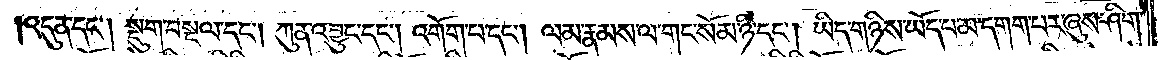འདུན་དང༌། སྡུག་བསྔལ་དང༌། ཀུན་འབྱུང་དང༌། འགོག་པ་དང༌། ལམ་རྣམས་ལ་གང་སོམ་ཉི་དང༌། ཡིད་གཉིས་ཡོད་པ་མ་དགག་པར་ཞུས་ཤིག་
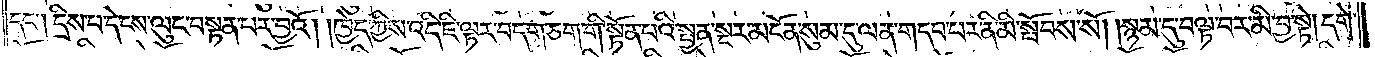དང༌། དྲིས་པ་དེ་ངས་ལུང་བསྟན་པར་བྱའོ། །ཁྱེད་ཀྱིས་འདི་ཇི་ལྟར་བདག་ཅག་གི་སྟོན་པའི་སྤྱན་སྔར་མངོན་སུམ་དུ་ལན་གདབ་པར་ནི་མི་སྤོབས་སོ། །སྙམ་དུ་བལྟ་བར་མི་བྱ་སྟེ། དགེ་
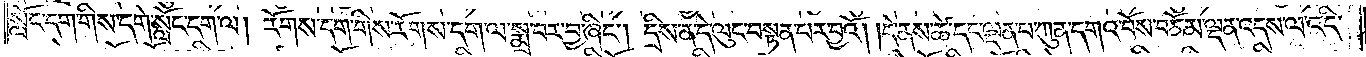སློང་དག་གིས་དགེ་སློང་དག་ལ། རོགས་དག་གིས་རོགས་དག་ལ་སྨྲ་བར་བྱ་ཞིང༌། དྲིས་ན་དེ་ལུང་བསྟན་པར་བྱའོ། །དེ་ནས་ཚེ་དང་ལྡན་པ་ཀུན་དགའ་བོས་བཅོམ་ལྡན་འདས་ལ་འདི་
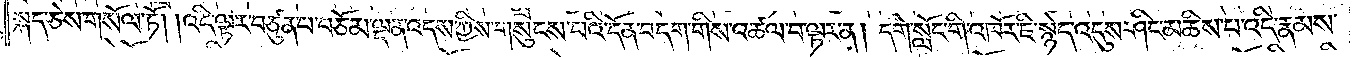སྐད་ཅེས་གསོལ་ཏོ། །འདི་ལྟར་བཙུན་པ་བཅོམ་ལྡན་འདས་ཀྱིས་གསུངས་པའི་དོན་བདག་གིས་འཚལ་བ་ལྟར་ན། དགེ་སློང་གི་འཁོར་ཇི་སྙེད་འདུས་ཤིང་མཆིས་པ་འདི་རྣམས་
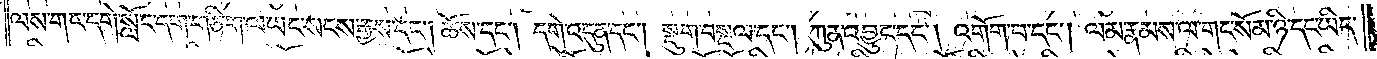ལས་གང་དགེ་སློང་དག་གཅིག་ལ་ཡང་སངས་རྒྱས་དང༌། ཆོས་དང༌། དགེ་འདུན་དང༌། སྡུག་བསྔལ་དང༌། ཀུན་འབྱུང་དང༌། འགོག་པ་དང༌། ལམ་རྣམས་ལ་གང་སོམ་ཉི་དང་ཡིད་
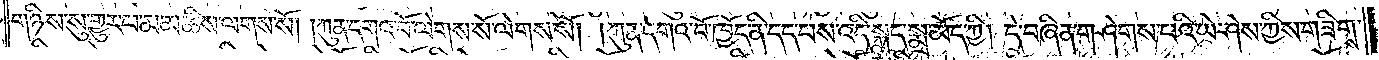གཉིས་སུ་གྱུར་པ་མ་མཆིས་ལགས་སོ། །ཀུན་དགའ་བོ་ལེགས་སོ་ལེགས་སོ། །ཀུན་དགའ་བོ་ཁྱོད་ནི་དད་པས་འདི་སྐད་སྨྲ་མོད་ཀྱི། དེ་བཞིན་གཤེགས་པའི་ཡེ་ཤེས་ཀྱིས་གཟིགས་
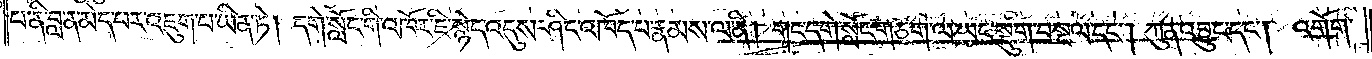པ་ནི་བླ་ན་མེད་པར་འཇུག་པ་ཡིན་ཏེ། དགེ་སློང་གི་འཁོར་ཇི་སྙེད་འདུས་ཤིང་འཁོད་པ་རྣམས་ལ་ནི། གང་དགེ་སློང་གཅིག་ལ་ཡང་སྡུག་བསྔལ་དང༌། ཀུན་འབྱུང་དང༌། འགོག་
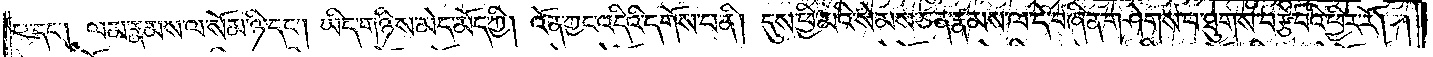པ་དང༌། ལམ་རྣམས་ལ་སོམ་ཉི་དང༌། ཡིད་གཉིས་མེད་མོད་ཀྱི། འོན་ཀྱང་འདིའི་དགོས་པ་ནི། དུས་ཕྱི་མའི་སེམས་ཅན་རྣམས་ལ་དེ་བཞིན་གཤེགས་པ་ཐུགས་བརྩེ་བའི་ཕྱིར་རོ། །
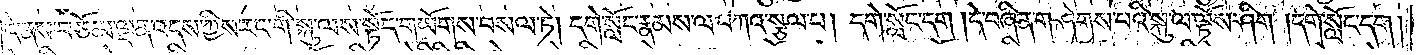དེ་ནས་བཅོམ་ལྡན་འདས་ཀྱིས་རང་གི་སྐུ་ལས་སྟོད་གཡོགས་བསལ་ཏེ། དགེ་སློང་རྣམས་ལ་བཀའ་སྩལ་པ། དགེ་སློང་དག །དེ་བཞིན་གཤེགས་པའི་སྐུ་ལ་ལྟོས་ཤིག །དགེ་སློང་དག །
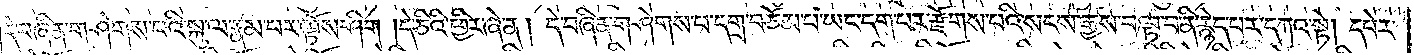དེ་བཞིན་གཤེགས་པའི་སྐུ་ལ་རྣམ་པར་ལྟོས་ཤིག །དེ་ཅིའི་ཕྱིར་ཞེ་ན། དེ་བཞིན་གཤེགས་པ་དགྲ་བཅོམ་པ་ཡང་དག་པར་རྫོགས་པའི་སངས་རྒྱས་བལྟ་བ་ནི་རྙེད་པར་དཀའ་སྟེ། དཔེར་
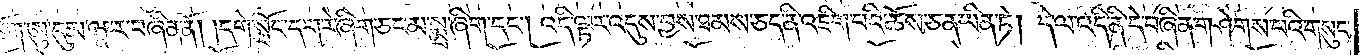ན་མེ་ཏོག་ཨུ་དུམ་ཝཱ་ར་བཞིན་ནོ། །དགེ་སློང་དག་རེ་ཞིག་ཅང་མ་སྨྲ་ཞིག་དང༌། འདི་ལྟར་འདུས་བྱས་ཐམས་ཅད་ནི་འཇིག་པའི་ཆོས་ཅན་ཡིན་ཏེ། དེ་ལ་འདི་ནི་དེ་བཞིན་གཤེགས་པའི་གསུང་
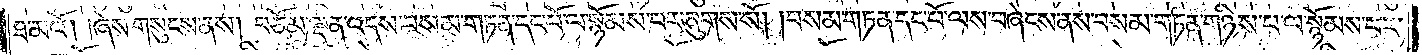ཐ་མའོ། །ཞེས་གསུངས་ནས། བཅོམ་ལྡན་འདས་བསམ་གཏན་དང་པོ་ལ་སྙོམས་པར་ཞུགས་སོ། །བསམ་གཏན་དང་པོ་ལས་བཞེངས་ནས་བསམ་གཏན་གཉིས་པ་ལ་སྙོམས་པར་
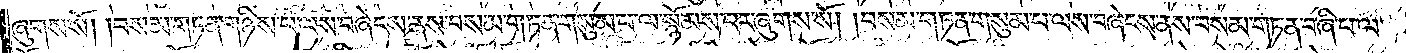ཞུགས་སོ། །བསམ་གཏན་གཉིས་པ་ལས་བཞེངས་ནས་བསམ་གཏན་གསུམ་པ་ལ་སྙོམས་པར་ཞུགས་སོ། །བསམ་གཏན་གསུམ་པ་ལས་བཞེངས་ནས་བསམ་གཏན་བཞི་པ་ལ་
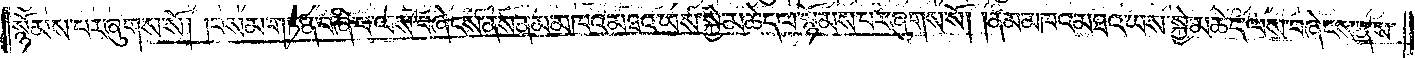སྙོམས་པར་ཞུགས་སོ། །བསམ་གཏན་བཞི་པ་ལས་བཞེངས་ནས་ནམ་མཁའ་མཐའ་ཡས་སྐྱེ་མཆེད་ལ་སྙོམས་པར་ཞུགས་སོ། །ནམ་མཁའ་མཐའ་ཡས་སྐྱེ་མཆེད་ལས་བཞེངས་ནས་
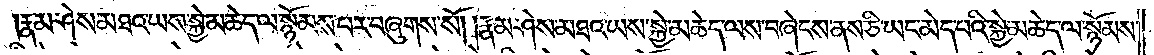རྣམ་ཤེས་མཐའ་ཡས་སྐྱེ་མཆེད་ལ་སྙོམས་པར་བཞུགས་སོ། །རྣམ་ཤེས་མཐའ་ཡས་སྐྱེ་མཆེད་ལས་བཞེངས་ནས་ཅི་ཡང་མེད་པའི་སྐྱེ་མཆེད་ལ་སྙོམས་
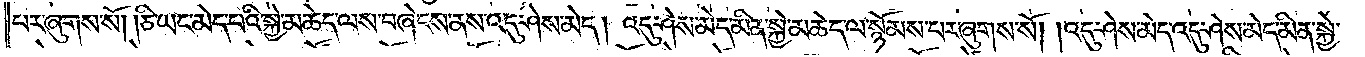པར་ཞུགས་སོ། །ཅི་ཡང་མེད་པའི་སྐྱེ་མཆེད་ལས་བཞེངས་ནས་འདུ་ཤེས་མེད། འདུ་ཤེས་མེད་མིན་སྐྱེ་མཆེད་ལ་སྙོམས་པར་ཞུགས་སོ། །འདུ་ཤེས་མེད་འདུ་ཤེས་མེད་མིན་སྐྱེ་
